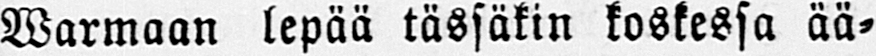Warmaan lepää tässäkin koskessa ää-
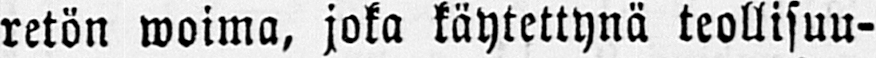retön woima, joka käytettynä teollisuu-
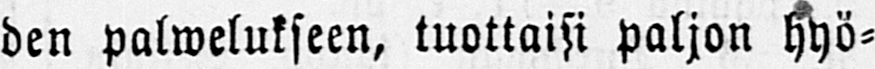den palwelukseen, tuottaisi paljon hyö-
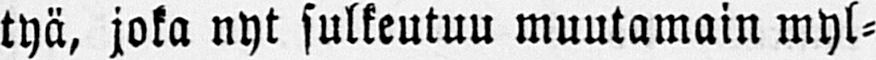tyä, joka nyt sulkeutuu muutamain myl-
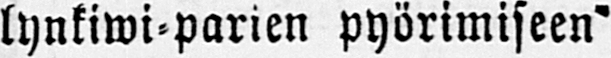lynkiwi-parien pyörimiseen
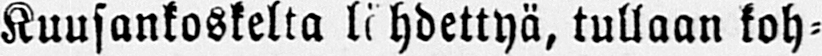Kuusankoskelta lähdettyä, tullaan koh-
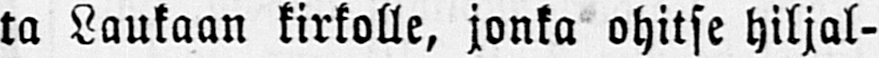ta Laukaan kirkolle, jonka ohitse hiljal-
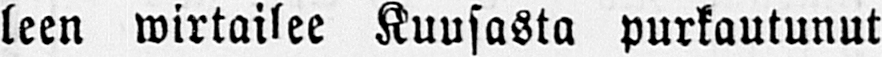leen wirtailee Kuusasta purkautunut
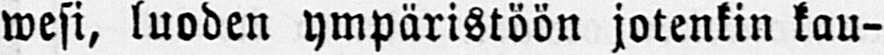wesi, luoden ympäristöön jotenkin kau-
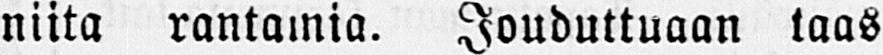niita rantamia. Jouduttuaan taas
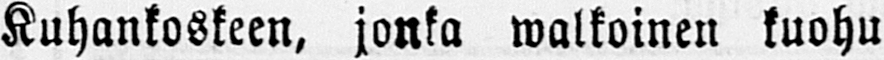Kuhankoskeen, jonka walkoinen kuohu
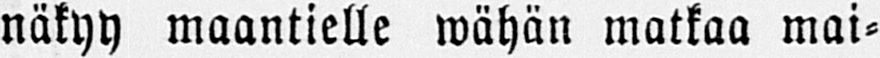näkyy maantielle wähän matkaa mai-
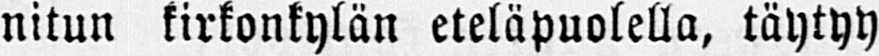nitun kirkonkylän eteläpuolella, täytyy
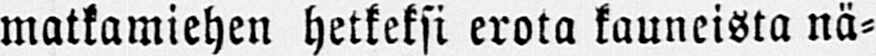matkamiehen hetkeksi erota kauneista nä-
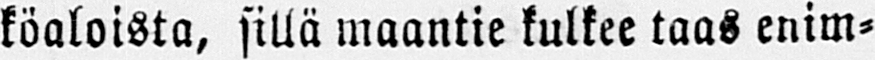köaloista, sillä maantie kulkee taas enim-
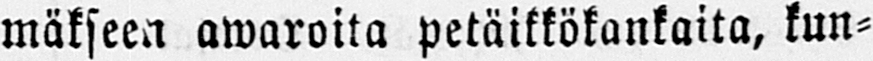mäkseen awaroita petäikkökankaita, kun-
